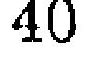40
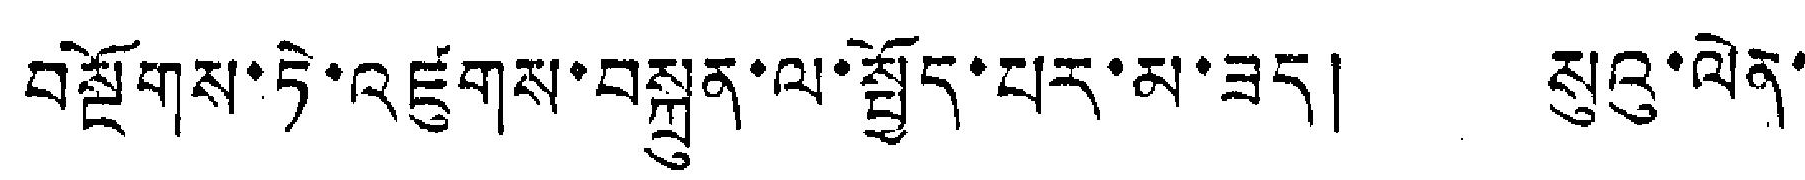བསྔོགས་ཏེ་འཛུགས་བསྐྲུན་ལ་སྤྱོད་པར་མ་ཟད། སུའུ་ལེན་
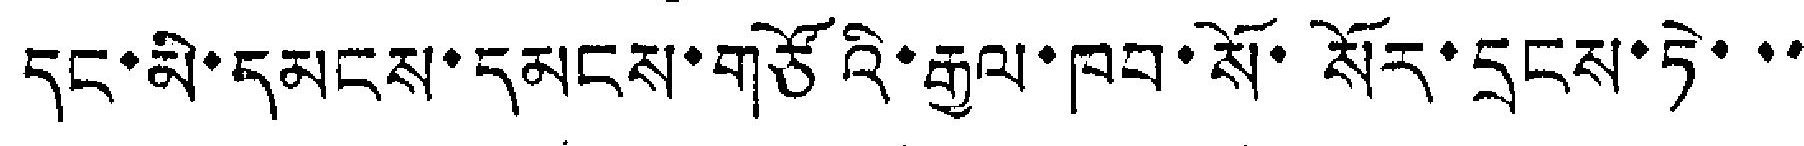དང་མི་དམངས་དམངས་གཙོའི་རྒྱལ་ཁབ་སོ་སོར་དྲངས་ཏེ་་་་
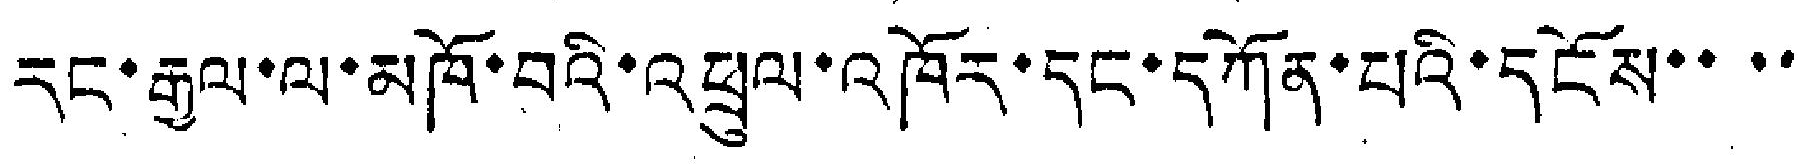རང་རྒྱལ་ལ་མཁོ་བའི་འཕྲུལ་འཁོར་དང་དཀོན་པའི་དངོས་་་་
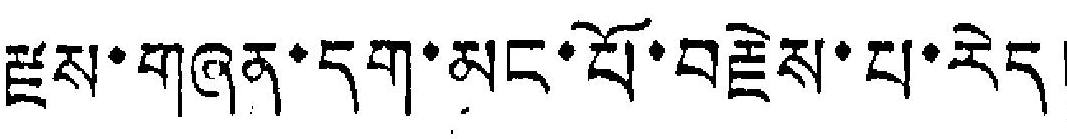རྫས་གཞན་དག་མང་པོ་བརྗེས་པ་རེད།
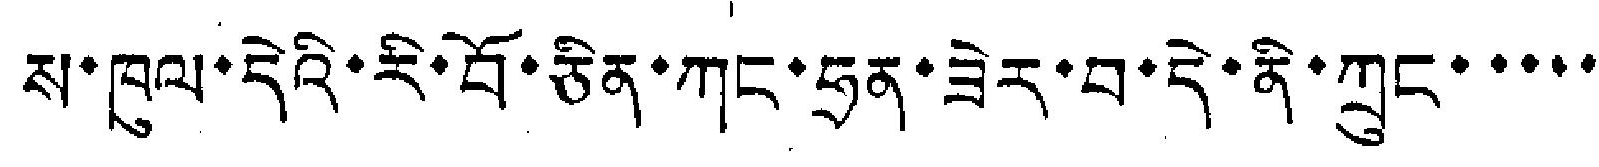ས་ཁུལ་དེའི་རི་བོ་ཅིན་ཀང་ཧྲན་ཟེར་བ་དེ་ནི་ཀྲུང་་་་་
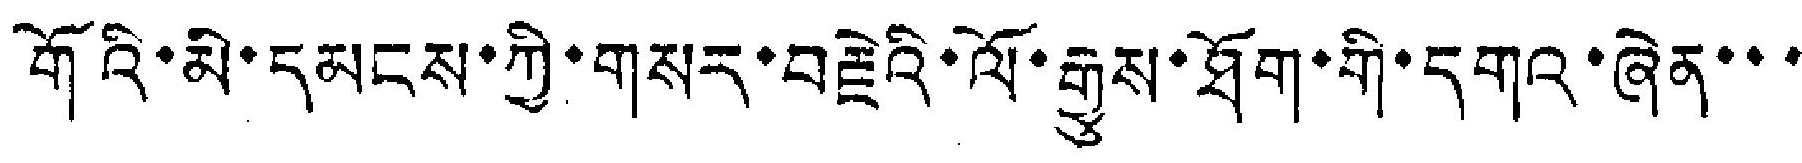གོའི་མི་དམངས་ཀྱི་གསར་བརྗེའི་ལོ་རྒྱུས་ཐོག་གི་དགའ་ཞེན་་་
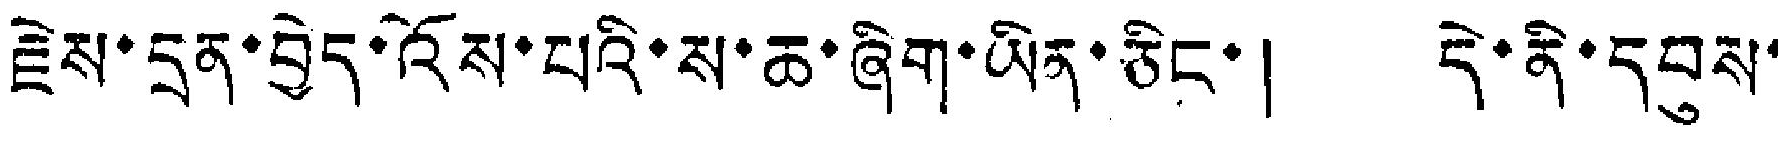རྗེས་དྲན་བྱེད་འོས་པའི་ས་ཆ་ཞིག་ཡིན་ཅིང་། དེ་ནི་དབུས་
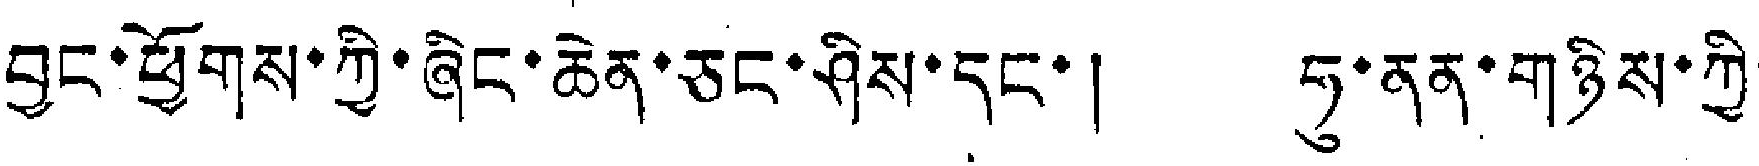བྱང་ཕྱོགས་ཀྱི་ཞིང་ཆེན་ཅང་ཤིས་དང་། ཧུ་ནན་གཉིས་ཀྱི་
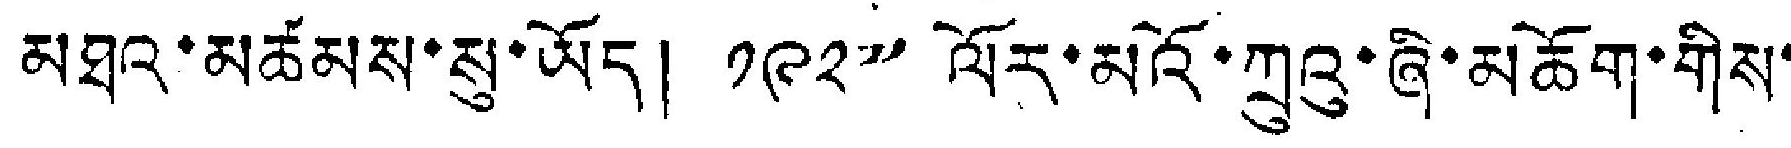མཐའ་མཚམས་སུ་ཡོད། ༡༩༢༧ ལོར་མའོ་ཀྲུའུ་ཞི་མཆོག་གིས་
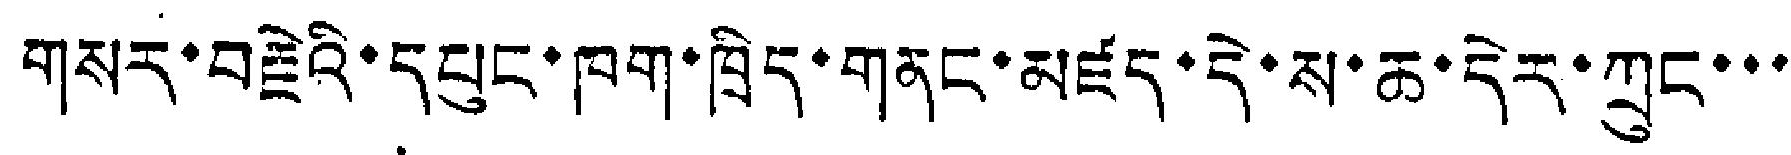གསར་བརྗེའི་དཔུང་ཁག་ཁྲིད་གནང་མཛད་དེ་ས་ཆ་དེར་ཀྲུང་་་
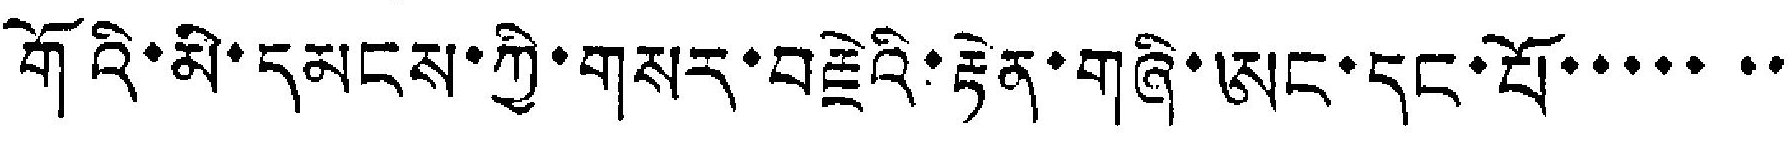གོའི་མི་དམངས་ཀྱི་གསར་བརྗེའི་རྟེན་གཞི་ཨང་དང་པོ་་་་་་་
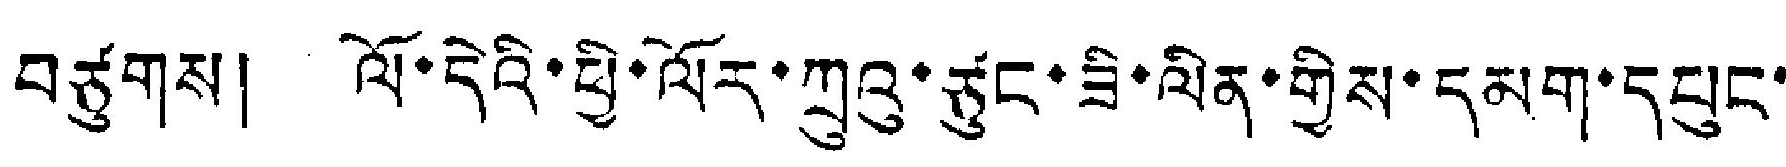བཙུགས། ལོ་དེའི་ཕྱི་ལོར་ཀྲུའུ་ཙུང་ཟི་ལིན་གྱིས་དམག་དཔུང་
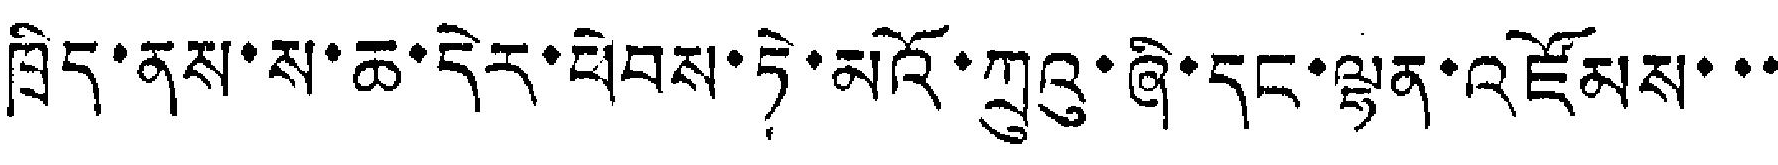ཁྲིད་ནས་ས་ཆ་དེར་ཕེབས་ཏེ་མའོ་ཀྲུའུ་ཞི་དང་ལྷན་འཛོམས་་་
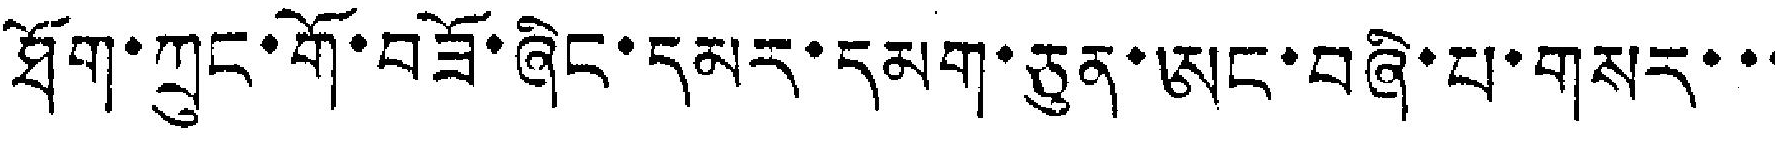ཐོག་ཀྲུང་གོ་བཟོ་ཞིང་དམར་དམག་ཅུན་ཨང་བཞི་པ་གསར་་་
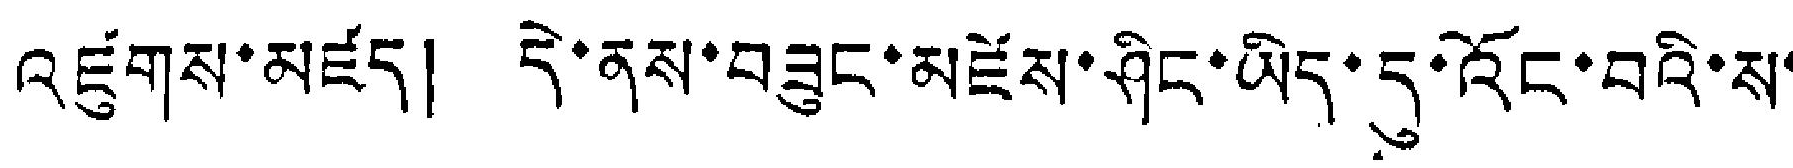འཛུགས་མཛད། དེ་ནས་བཟུང་མཛེས་ཤིང་ཡིད་དུ་འོང་བའི་ས་
